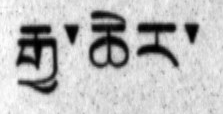རྒྱ་ཆེར་
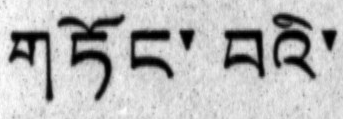གཏོང་བའི་
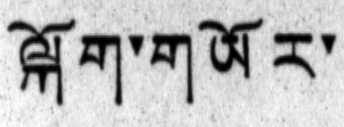ལྐོག་གཡོར་
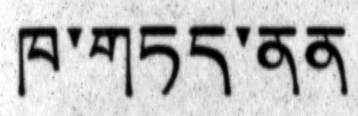ཁ་གཏད་ནན
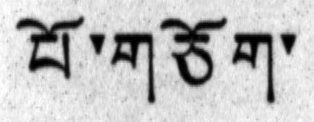པོ་གཅོག་
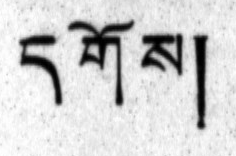དགོས།
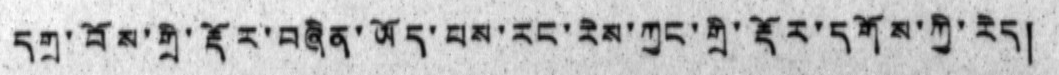དགྲ་བོས་གྲི་རྡོར་བཞིན་ཡོད་པས་རང་རེས་ཀྱང་གྲི་རྡོར་དགོས་ཀྱི་རེད།
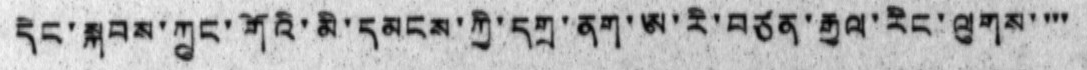དེང་སྐབས་ཀྲུང་གོའི་མི་དམངས་ཀྱི་དགྲ་ནག་ཨ་རི་བཙན་རྒྱལ་རིང་ལུགས་ ་་་
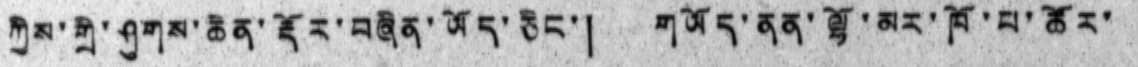ཀྱིས་གྲི་ཤུགས་ཆེན་རྡོར་བཞིན་ཡོད་ཅིང་། གཡོད་ནན་ལྷོ་མར་ཁོ་པ་ཚོར་
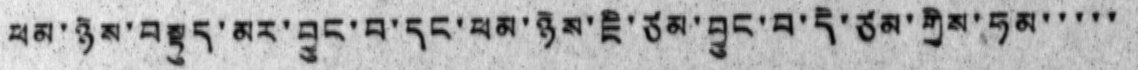ཕམ་ཉེས་བསྟུད་མར་བྱུང་བ་དང་ཕམ་ཉེས་ཇི་ཙམ་བྱུང་བ་དེ་ཙམ་གྱིས་ཧམ་་་་་
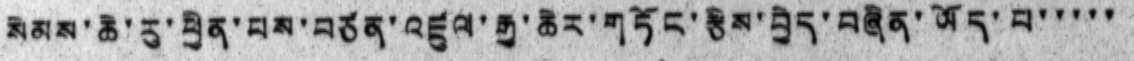སེམས་ཆེ་རུ་ཕྱིན་པས་བཙན་འཛུལ་རྒྱ་ཆེར་གཏོང་རྩིས་བྱེད་བཞིན་ཡོད་པ་་་་་
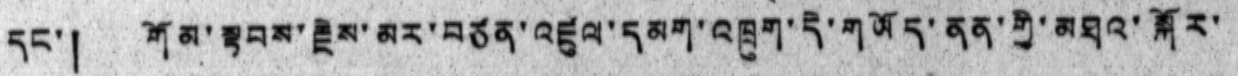དང་། གོམ་སྟབས་རྗེས་མར་བཙན་འཛུལ་དམག་འཁྲུག་དེ་གཡོད་ནན་གྱི་མཐའ་སྐོར་
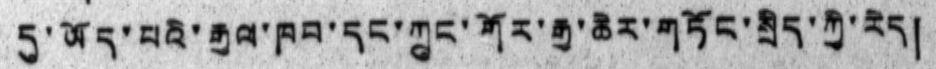དུ་ཡོད་པའི་རྒྱལ་ཁབ་དང་ཀྲུང་གོར་རྒྱ་ཆེར་གཏོང་སྲིད་ཀྱི་རེད།
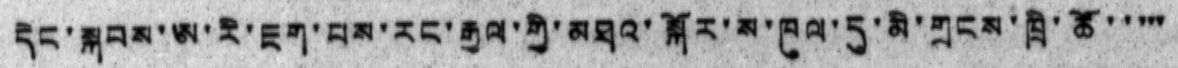དེང་སྐབས་ཨ་རི་ཇག་པས་རང་རྒྱལ་གྱི་མཐའ་སྐོར་ས་ཁུལ་དུ་མི་གྲངས་ཁྲི་ཚོ་ ་་་་
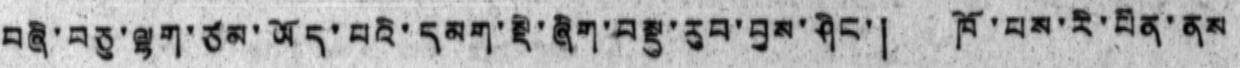བཞི་བཅུ་ལྷག་ཙམ་ཡོད་པའི་དམག་སྡེ་ཞིག་བསྡུ་རུབ་བྱས་ཤིང་། ཁོ་པས་རི་པིན་ནས
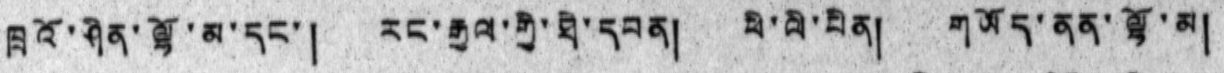ཁྲའོ་ཤིན་ལྷོ་མ་དང་། རང་རྒྱལ་གྱི་ཐེ་དབན། ཕི་ལི་པིན། གཡོད་ནན་ལྷོ་མ།
